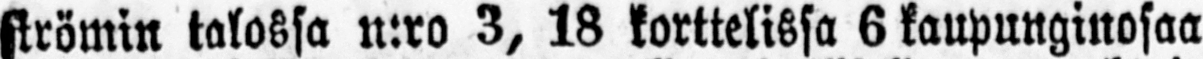strömin talossa n:ro 3, 18 korttelissa 6 kaupunginosaa
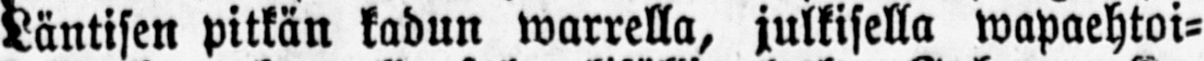Läntisen pitkän kadun warrella, julkisella wapaehtoi-
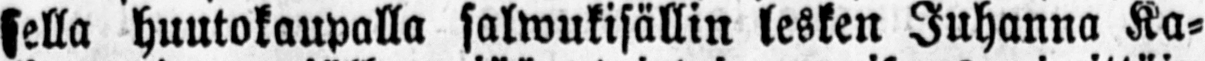sella huutokaupalla salwukisällin lesken Juhanna Ka-
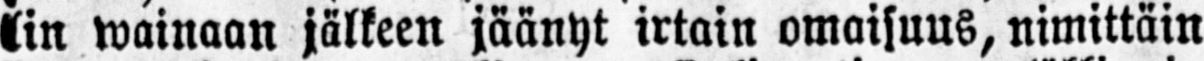lin wainaan jälkeen jäänyt irtain omaisuus, nimittäin
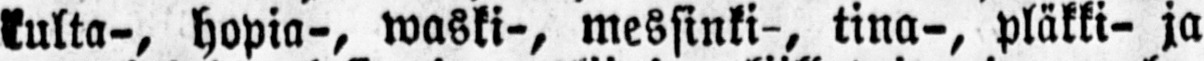kulta-, hopia-, waski-, messinki-, tina-, pläkki-ja
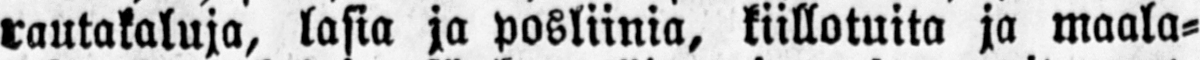rautakaluja, lasia ja posliinia, kiillotuita ja maala-
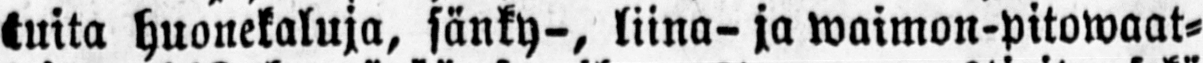tuita huonekaluja, sänky-, liina- ja waimon-pitowaat-
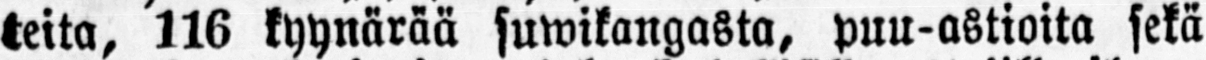teita, 116 kyynärää suwikangasta, puu-astioita sekä
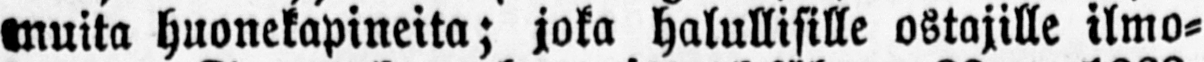muita huonekapineita; joka halullisille ostajille ilmo-
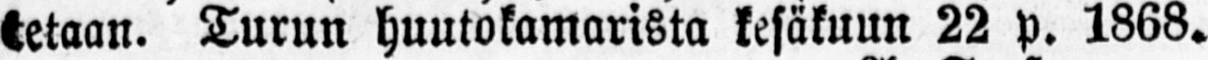tetaan. Turun huutokamarista kesäkuun 22 p.1868.
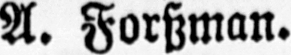A. Forszman.
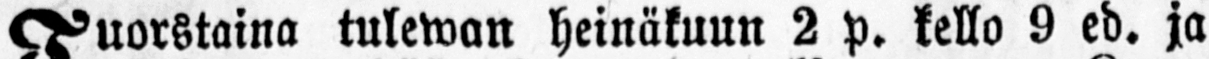Tourstaina tulewan heinäkuun 2 p. kello 9 ed. ja
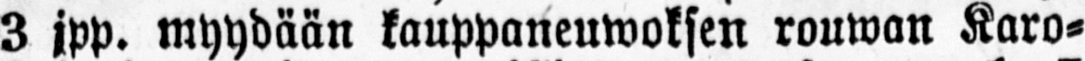3 jpp. myydään kauppaneuwoksen rouwan Karo-
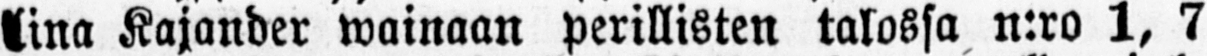lina Kajander wainaan perillisten talossa n:ro 1, 7
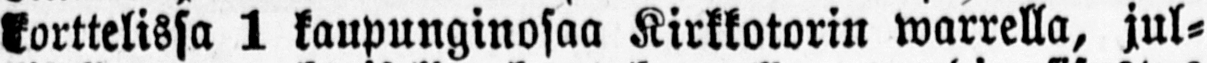korttelissa 1 kaupunginosaa Kirkkotorin warrella, jul-
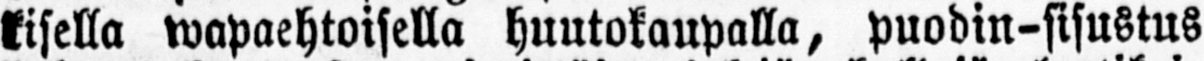kisella wapaehtoisella huutokaupalla, puodin-sisustus
